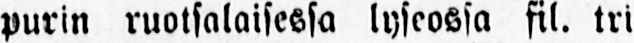purin ruotsalaisessa lyseossa fil. tri
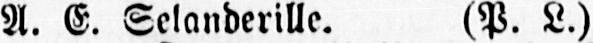A. E. Selanderille. (P. L.)
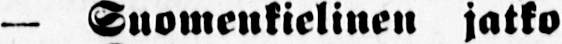— Suomenkielinen jatko-
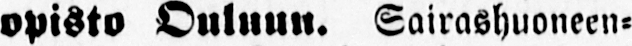opisto Ouluun. Sairashuoneen-
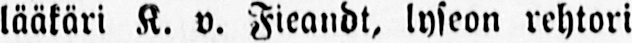lääkäri K. v. Fieandt, lyseon rehtori
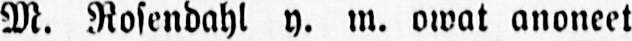M. Rosendahl y. m. owat anoneet
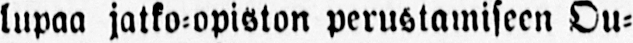lapaa jatko-opiston perustamiseen Ou-
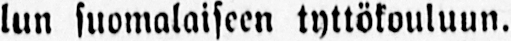lun suomalaiseen tyttökouluun.
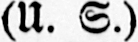(U. S.)
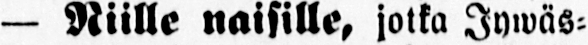— Niille naisille, jotka Jywäs-
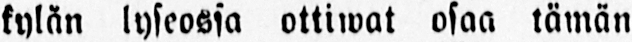kylän lyseossa ottiwat osaa tämän
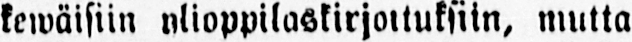kewäisiin ylioppilaskirjoituksiin, mutta
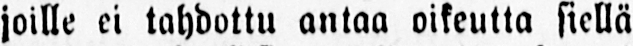joille ei tahdottu antaa oikeutta siellä
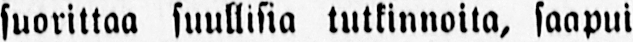suorittaa suullisia tutkinnoita, saapui
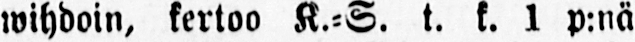wihdoin, kertoo K.-S. t. k. 1 p:nä
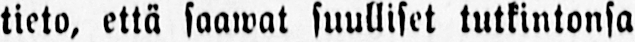tieto, että saawat suulliset tutkintonsa
